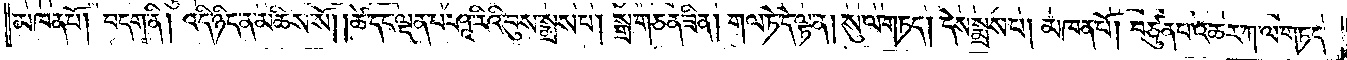མཁན་པོ། བདག་ནི། འདི་ཉིད་ན་མཆིས་སོ། །ཚེ་དང་ལྡན་པ་ཤཱ་རིའི་བུས་སྨྲས་པ། སྒྲ་གཅན་ཟིན། གལ་ཏེ་དེ་ལྟ་ན། སུ་ལ་གཏད། དེས་སྨྲས་པ། མཁན་པོ། བཙུན་པ་འཆར་ཀ་ལ་གཏད་
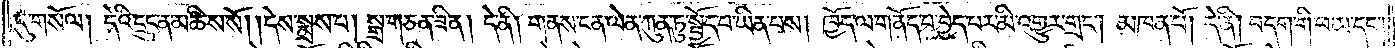དུ་གསོལ། དེའི་དྲུང་ན་མཆིས་སོ། །དེས་སྨྲས་པ། སྒྲ་གཅན་ཡིན། དེ་ནི། གནས་ངན་ལེན་ཀུན་ཏུ་སྤྱོད་པ་ཡིན་པས། ཁྱོད་ལ་གནོད་པ་བྱེད་པར་མི་འགྱུར་གྲང༌། མཁན་པོ། དེ་ནི། བདག་གི་ཕ་མ་དང༌།
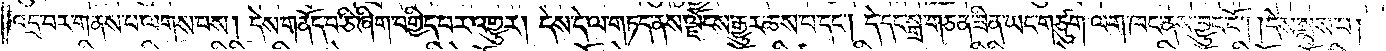འདྲ་བར་གནས་པ་ལགས་པས། དེས་གནོད་པ་ཅི་ཞིག་བགྱིད་པར་འགྱུར། དེས་དེ་ལ་གཏད་ནས་ལྗོངས་རྒྱུར་ཆས་པ་དང༌། དེ་དང་སྒྲ་གཅན་ཟིན་ཡང་གཙུག་ལག་ཁང་ནས་བྱུང་ངོ༌། །དེས་སྨྲས་པ།
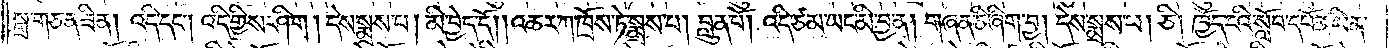སྒྲ་གཅན་ཟིན། འདི་དང༌། འདི་གྱིས་ཤིག །དེས་སྨྲས་པ། མི་བྱེད་དོ། །འཆར་ཀ་ཁྲོས་ཏེ་སྨྲས་པ། བླུན་པོ། འདི་ཙམ་ཡང་མི་བྱ་ན། གཞན་ཅི་ཞིག་བྱ། དེས་སྨྲས་པ། ཅི། ཁྱོད་ངའི་སློབ་དཔོན་ཡིན་
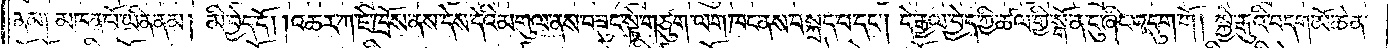ནམ། མཁན་པོ་ཡིན་ནམ། མི་བྱེད་དོ། །འཆར་ཀ་ཇེ་ཁྲོས་ནས་དེས་དེའི་མགུལ་ནས་བཟུང་སྟེ་གཙུག་ལག་ཁང་ནས་བསྐྲད་པ་དང༌། དེ་རྒྱལ་བྱེད་ཀྱི་ཚལ་གྱི་སྒོ་ན་ངུ་ཞིང་འདུག་གོ། །སྐྱེ་རྒུའི་བདག་མོ་ཆེན་
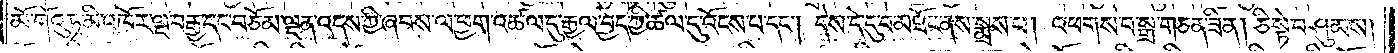མོ་གོའུ་ཏ་མི་འཁོར་ལྔ་བརྒྱ་དང་བཅོམ་ལྡན་འདས་ཀྱི་ཞབས་ལ་ཕྱག་འཚལ་དུ་རྒྱལ་བྱེད་ཀྱི་ཚལ་དུ་འོངས་པ་དང༌། དེས་དེ་དུ་བ་མཐོང་ནས་སྨྲས་པ། འཕགས་པ་སྒྲ་གཅན་ཟིན། ཅི་སྟེ་བཤུམས།
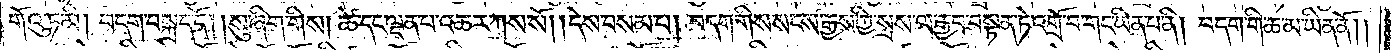གོའུ་ཏ་མི། བདག་བསྐྲད་དོ། །སུ་ཞིག་གིས། ཚེ་དང་ལྡན་པ་འཆར་ཀས་སོ། །དེས་བསམ་པ། བདག་གིས་སངས་རྒྱས་ཀྱི་སྲས་ལ་རྒྱབ་བསྟན་ཏེ་འགྲོ་བ་གང་ཡིན་པ་ནི། བདག་གི་ཆ་མ་ཡིན་ནོ། །
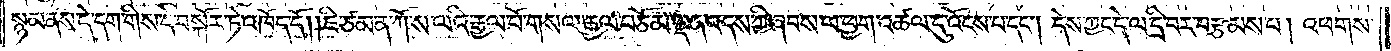སྙམ་ནས་དེ་དག་གིས་དེ་བསྐོར་ཏེ་འཁོད་དོ། །ཇི་ཙམ་ན་ཀོ་ས་ལའི་རྒྱལ་པོ་གསལ་རྒྱལ་བཅོམ་ལྡན་འདས་ཀྱི་ཞབས་ལ་ཕྱག་འཚལ་དུ་འོངས་པ་དང༌། དེས་ཀྱང་དེ་ལ་དྲི་བར་བརྩམས་པ། འཕགས་
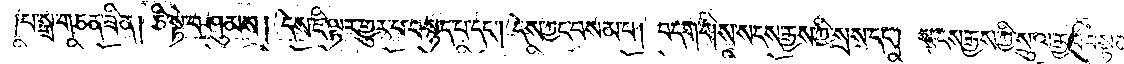པ་སྒྲ་གཅན་ཟིན། ཅི་སྟེ་བཤུམས། དེས་ཇི་ལྟར་གྱུར་པ་བསྙད་པ་དང༌། དེས་ཀྱང་བསམ་པ། བདག་གིས་སངས་རྒྱས་ཀྱི་སྲས་དང༌། སངས་རྒྱས་ཀྱི་སྲུ་ལ་རྒྱབ་བསྟན་ཏེ་འགྲོ་
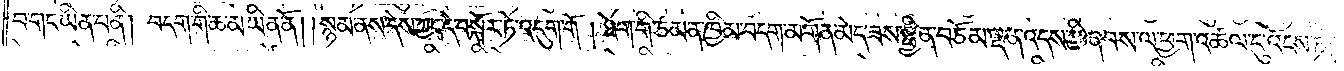བ་གང་ཡིན་པ་ནི། བདག་གི་ཆ་མ་ཡིན་ནོ། །སྙམ་ནས་དེས་ཀྱང་དེ་བསྐོར་ཏེ་འདུག་གོ །ཐེག་གི་ཙམ་ན་ཁྱིམ་བདག་མགོན་མེད་ཟས་སྦྱིན་བཅོམ་ལྡན་འདས་ཀྱི་ཞབས་ལ་ཕྱག་འཚལ་དུ་འོངས་ཏེ།
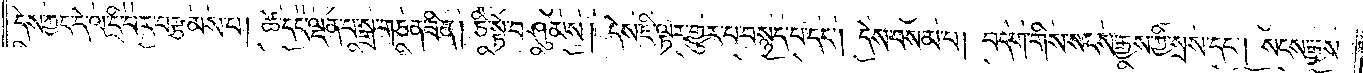དེས་ཀྱང་དེ་ལ་དྲི་བར་བརྩམས་པ། ཚེ་དང་ལྡན་པ་སྒྲ་གཅན་ཟིན། ཅི་སྟེ་བཤུམས། དེས་ཇི་ལྟར་གྱུར་པ་བསྙད་པ་དང༌། དེས་བསམ་པ། བདག་གིས་སངས་རྒྱས་ཀྱི་སྲས་དང༌། སངས་རྒྱས་
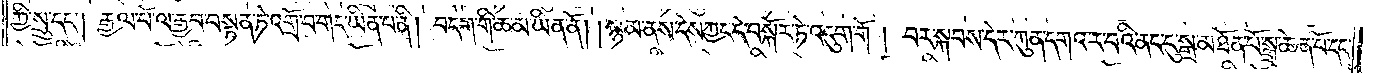ཀྱི་སྲུ་དང༌། རྒྱལ་པོ་ལ་རྒྱབ་བསྟན་ཏེ་འགྲོ་བ་གང་ཡིན་པ་ནི། བདག་གི་ཆ་མ་ཡིན་ནོ། །སྙམ་ནས་དེས་ཀྱང་དེ་བསྐོར་ཏེ་འདུག་གོ། བར་སྐབས་དེར་ཀུན་དགའ་ར་བའི་ནང་དུ་སྒྲ་མཐོན་པོ་སྒྲ་ཆེན་པོ་དང་
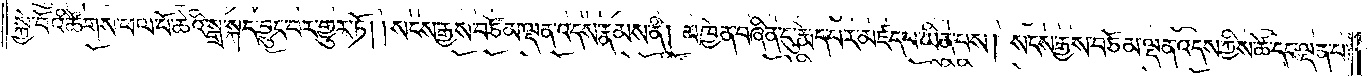སྐྱེ་བོའི་ཚོགས་ཕལ་པོ་ཆེའི་སྒྲ་སྐད་བྱུང་བར་གྱུར་ཏོ། །སངས་རྒྱས་བཅོམ་ལྡན་འདས་རྣམས་ནི། མཁྱེན་བཞིན་དུ་རྨེད་པར་མཛད་པ་ཡིན་པས། སངས་རྒྱས་བཅོམ་ལྡན་འདས་ཀྱིས་ཚེ་དང་ལྡན་པ་
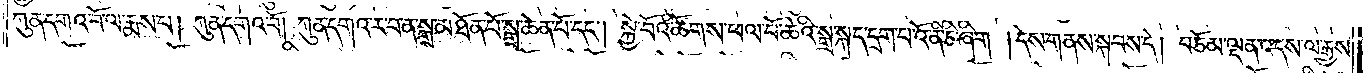ཀུན་དགའ་བོ་ལ་རྨས་པ། ཀུན་དགའ་བོ། ཀུན་དགའ་ར་བ་ན་སྒྲ་མཐོན་པོ་སྒྲ་ཆེན་པོ་དང༌། སྐྱེ་བོའི་ཚོགས་ཕལ་པོ་ཆེའི་སྒྲ་སྐད་དྲག་པའོ་ནི་ཅི་ཞིག །དེས་གནས་སྐབས་དེ། བཅོམ་ལྡན་འདས་ལ་རྒྱས་
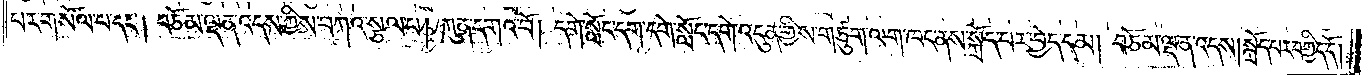པར་གསོལ་པ་དང༌། བཅོམ་ལྡན་འདས་ཀྱིས་བཀའ་སྩལ་པ། ཀུན་དགའ་བོ། དགེ་སློང་དག་དགེ་སློང་དགེ་འདུན་གྱིས་གཙུག་ལག་ཁང་ནས་སྐྲོད་པར་བྱེད་དམ། བཅོམ་ལྡན་འདས། སྐྲོད་པར་བགྱིད་དོ།
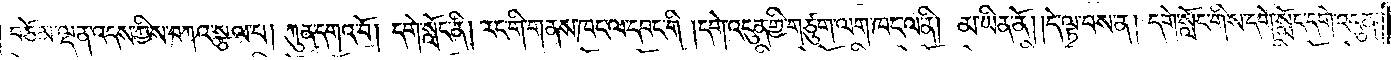བཅོམ་ལྡན་འདས་ཀྱིས་བཀའ་སྩལ་པ། ཀུན་དགའ་བོ། དགེ་སློང་ནི། རང་གི་གནས་ཁང་ལ་དབང་གི །དགེ་འདུན་གྱི་གཙུག་ལག་ཁང་ལ་ནི། མ་ཡིན་ནོ། །དེ་ལྟ་བས་ན། དགེ་སློང་གིས་དགེ་སློང་དགེ་འདུན་
